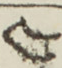༤
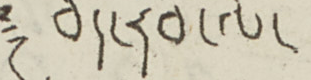༈ བོད་རབ་ལོ་
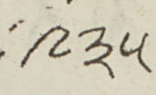༩༣༥
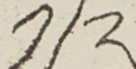༡/༢
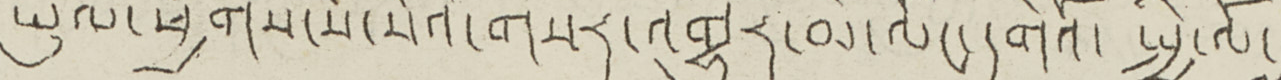ཡུལ་ཕྱོགས་སོ་སོའི་གསར་འགྱུར་མེ་ལོང་དགེའོ་ སྤྱི་ལོ་
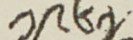༡༩༦༡
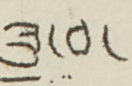ཟླ་བ་
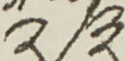༢/༣
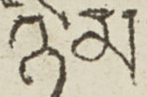ཉི་མ་
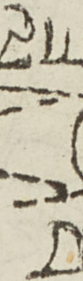ཟླ་བ་
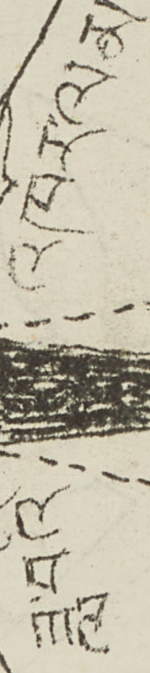ཟླ་བའི་ འཁོར་ལམ་
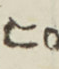༤༠
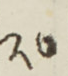༢༠
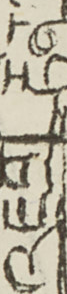འཇིག་རྟེན་
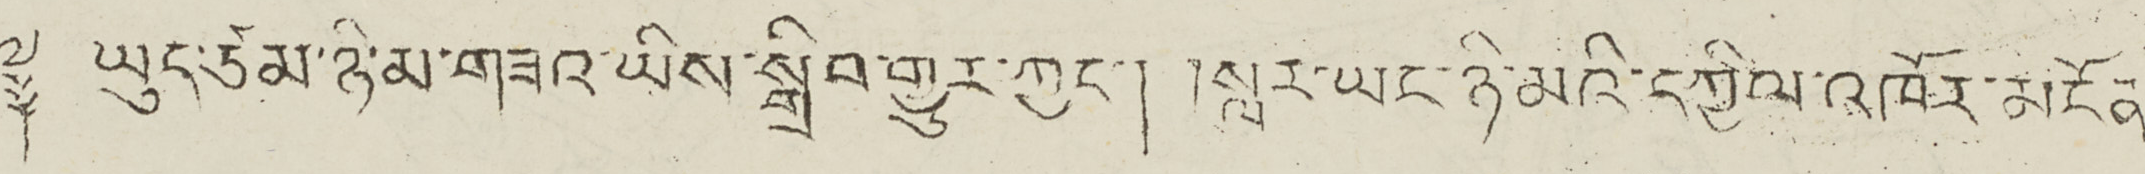༈ ཡུད་ཙམ་ཉི་མ་གཟའ་ཡིས་སྒྲིབ་གྱུར་ཀྱང་། །སླར་ཡང་ཉི་མའི་དཀྱིལ་འཁོར་མངོན་
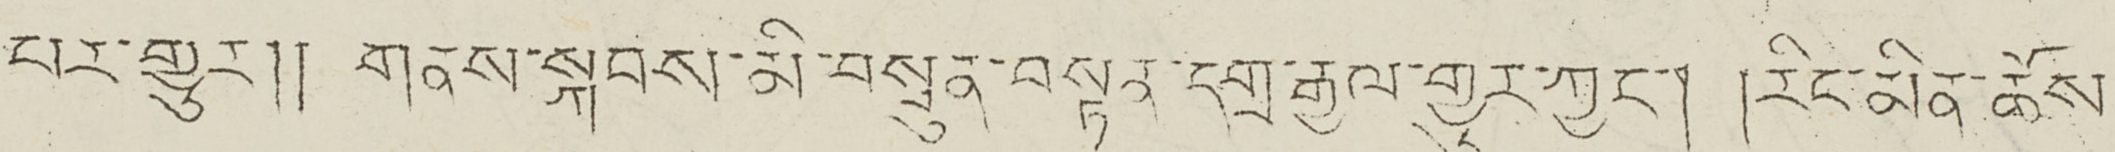པར་གྱུར།། གནས་སྐབས་མི་བསྲུན་བསྟན་དགྲ་རྒྱལ་གྱུར་ཀྱང་། །རིང་མིན་ཆོས་
